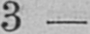3
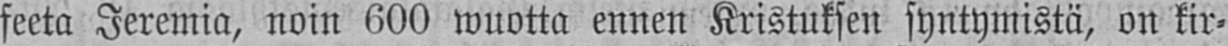feeta Jeremia, noin 600 wuotta ennen Kristuksen syntymistä, on kir-
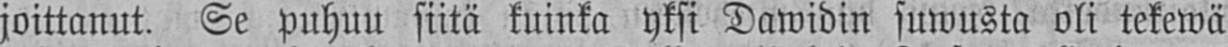joittanut. Se puhuu siitä kuinka yksi Dawidin suwusta oli tekewä
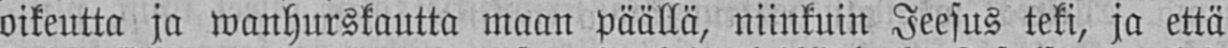oikeutta ja wanhurskautta maan päällä, niinkuin Jeesus teki, ja että
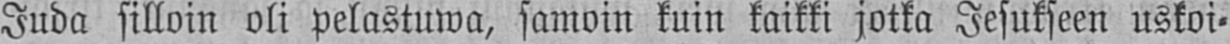Juda silloin oli pelastuwa, samoin kuin kaikki jotka Jesukseen uskoi-
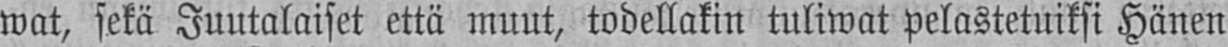wat, sekä Juutalaiset että muut, todellakin tuliwat pelastetuiksi Hänen
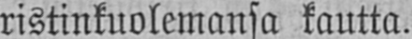ristinkuolemansa kautta.
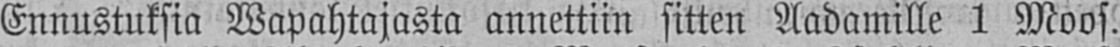Ennustuksia Wapahtajasta annettiin sitten Aadamille 1 Moos.
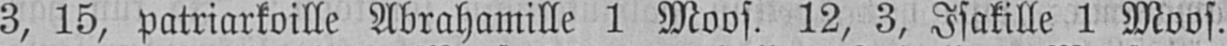3, 15, patriarkoille Abrahamille 1 Moos. 12, 3, Isakille 1 Moos.
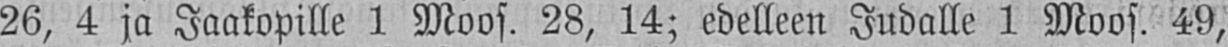26, 4 ja Jaakopille 1 Moos. 28, 14; edelleen Judalle 1 Moos. 49,
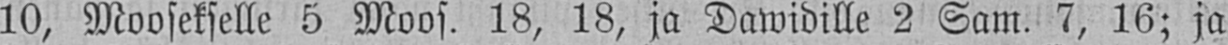10, Moosekselle 5 Moos. 18, 18, ja Dawidille 2 Sam. 7, 16; ja
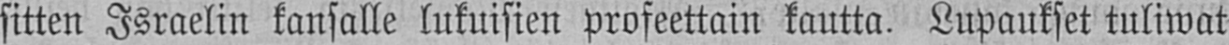sitten Israelin kansalle lukuisien profeettain kautta. Lupaukset tuliwat
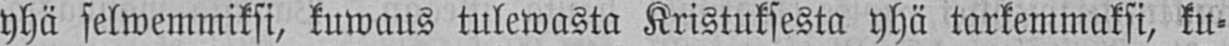yhä selwemmiksi, kuwaus tulewasta Kristuksesta yhä tarkemmaksi, ku-
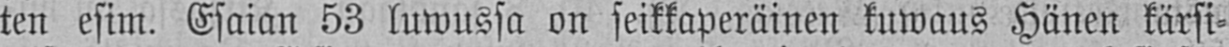ten esim. Esaian 53 kuwussa on seikkaperäinen kuwaus Hänen kärsi-
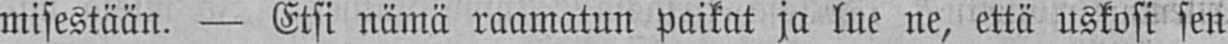misestään. — Etsi nämä raamatun paikat ja lue ne, että uskosi sen
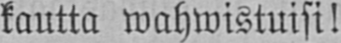kautta wahwistuisi!
